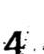4
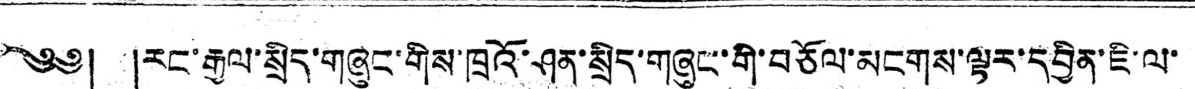༄༅། །རང་རྒྱལ་སྲིད་གཞུང་གིས་ཁྲའོ་ཤན་སྲིད་གཞུང་གི་བཅོལ་མངགས་ལྟར་དབྱིན་ཇི་ལ་
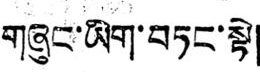གཞུང་ཡིག་བཏང་སྟེ།
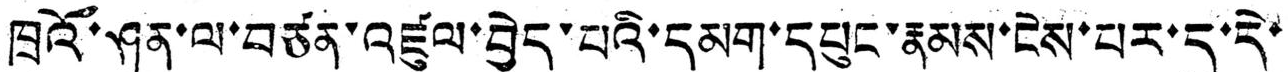ཁྲའོ་ཤན་ལ་བཙན་འཛུལ་བྱེད་པའི་དམག་དཔུང་རྣམས་ངེས་པར་དུ་དེ་
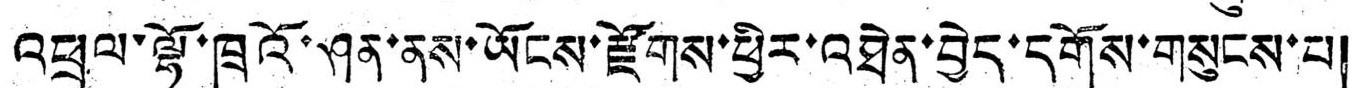འཕྲལ་ལྷོ་ཁྲའོ་ཤན་ནས་ཡོངས་རྫོགས་ཕྱིར་འཐེན་བྱེད་དགོས་གསུངས་པ།
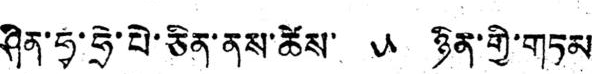ཤིན་ཧྭ་ཧྲེ་པེ་ཅིན་ནས་ཚེས་ ༥ ཉིན་གྱི་གཏམ
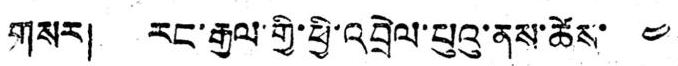གསར། རང་རྒྱལ་གྱི་ཕྱི་འབྲེལ་པུའུ་ནས་ཚེས་ ༤
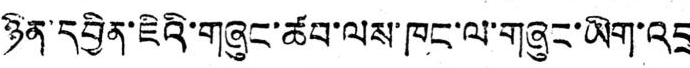ཉིན་དབྱིན་ཇིའི་གཞུང་ཚབ་ལས་ཁང་ལ་གཞུང་ཡིག་འདྲ
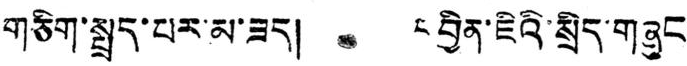གཅིག་སྤྲད་པར་མ་ཟད། དབྱིན་ཇིའི་སྲིད་གཞུང་
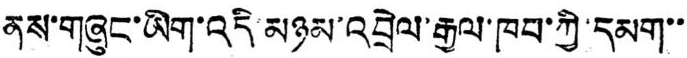ནས་གཞུང་ཡིག་འདི མཉམ་འབྲེལ་རྒྱལ་ཁབ་ཀྱི་དམག་་་
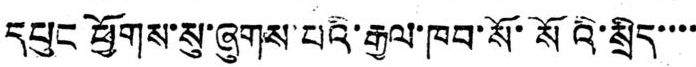དཔུང ཕྱོགས་སུ་ཞུགས་པའི་རྒྱལ་ཁབ་སོ་སོའི་སྲིད་་་་
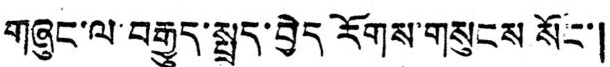གཞུང་ལ་བརྒྱུད་སྤྲད་བྱེད རོགས་གསུངས སོང་།
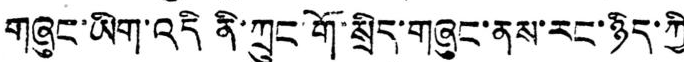གཞུང་ཡིག་འདི ནི་ཀྲུང་གོ་སྲིད་གཞུང་ནས་རང་ཉིད་ཀྱི་
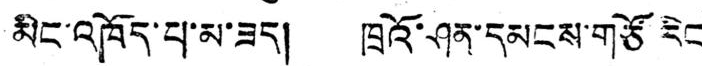མིང་འཁོད་པ་མ་ཟད། ཁྲའོ་ཤན་དམངས་གཙོ རིང
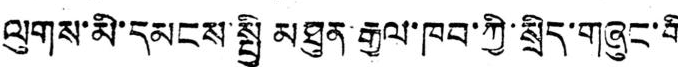ལུགས་མི་དམངས་སྤྱི མཐུན་རྒྱལ་ཁབ་ཀྱི་སྲིད་གཞུང་གི་
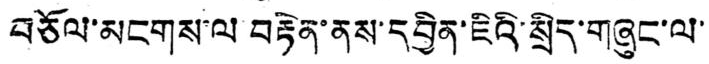བཅོལ་མངགས་ལ བརྟེན་ནས་དབྱིན་ཇིའི་སྲིད་གཞུང་ལ་
